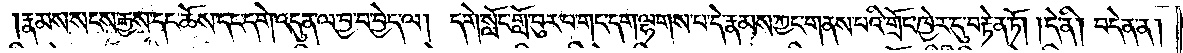རྣམས་སངས་རྒྱས་དང་ཆོས་དང་དགེ་འདུན་ལ་བྱ་བ་བྱེད་ལ། དགེ་སློང་གློ་བུར་པ་གང་དག་ལྷགས་པ་དེ་རྣམས་ཀྱང་གནས་པའི་གྲོང་ཁྱེར་དུ་བརྟེན་ཏོ། །དེ་ནི། བདེན་ན།
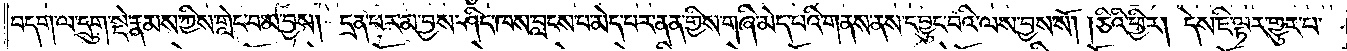བདག་ལ་དྲུག་སྡེ་རྣམས་ཀྱིས་གླེང་བམ་བྱས། དྲན་པར་མ་བྱས་ཤིང་ཁས་བླངས་པ་མེད་པར་ནན་གྱིས་གཞི་མེད་པའི་གནས་ནས་དབྱུང་བའི་ལས་བྱས་སོ། །ཅིའི་ཕྱིར། དེས་ཇི་ལྟར་གྱུར་པ་
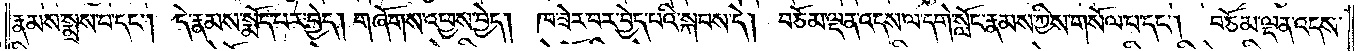རྣམས་སྨྲས་པ་དང༌། དེ་རྣམས་སྨོད་པར་བྱེད། གཞོགས་འཕྱས་བྱེད། ཁ་ཟེར་བར་བྱེད་པའི་སྐབས་དེ། བཅོམ་ལྡན་འདས་ལ་དགེ་སློང་རྣམས་ཀྱིས་གསོལ་པ་དང༌། བཅོམ་ལྡན་འདས་
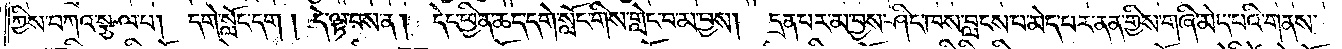ཀྱིས་བཀའ་སྩལ་པ། དགེ་སློང་དག། དེ་ལྟ་བས་ན། དེང་ཕྱིན་ཆད་དགེ་སློང་གིས་གླེང་བ་མ་བྱས། དྲན་པར་མ་བྱས་ཤིང་ཁས་བླངས་པ་མེད་པར་ནན་གྱིས་གཞི་མེད་པའི་གནས་
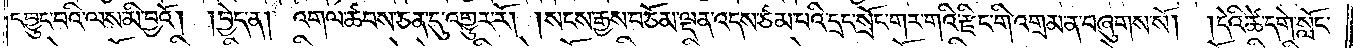དབྱུང་བའི་ལས་མི་བྱའོ། །བྱེད་ན། འགལ་ཚབས་ཅན་དུ་འགྱུར་རོ། །སངས་རྒྱས་བཅོམ་ལྡན་འདས་ཙམ་པའི་དྲང་སྲོང་གར་གའི་རྫིང་གི་འགྲམ་ན་བཞུགས་སོ། །དེའི་ཚེ་དགེ་སློང་
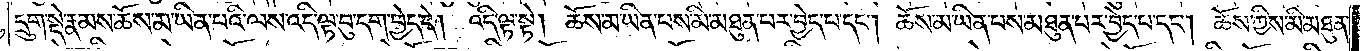དྲུག་སྡེ་རྣམས་ཆོས་མ་ཡིན་པའི་ལས་འདི་ལྟ་བུ་དག་བྱེད་དེ། འདི་ལྟ་སྟེ། ཆོས་མ་ཡིན་པས་མི་མཐུན་པར་བྱེད་པ་དང༌། ཆོས་མ་ཡིན་པས་མཐུན་པར་བྱེད་པ་དང༌། ཆོས་ཀྱིས་མི་མཐུན་
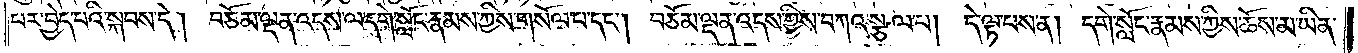པར་བྱེད་པའི་སྐབས་དེ། བཅོམ་ལྡན་འདས་ལ་དགེ་སློང་རྣམས་ཀྱིས་གསོལ་པ་དང༌། བཅོམ་ལྡན་འདས་ཀྱིས་བཀའ་སྩལ་པ། དེ་ལྟ་བས་ན། དགེ་སློང་རྣམས་ཀྱིས་ཆོས་མ་ཡིན་
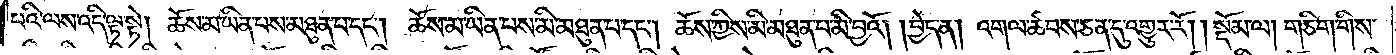པའི་ལས་འདི་ལྟ་སྟེ། ཆོས་མ་ཡིན་པས་མཐུན་པ་དང༌། ཆོས་མ་ཡིན་པས་མི་མཐུན་པ་དང༌། ཆོས་ཀྱིས་མི་མཐུན་པ་མི་བྱའོ། །བྱེད་ན། འགལ་ཚབས་ཅན་དུ་འགྱུར་རོ། སྡོམ་ལ། གཅིག་གིས་
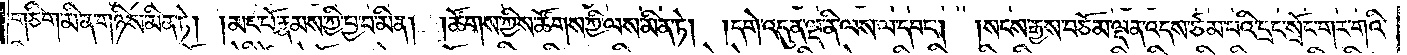གཅིག་མིན་གཉིས་མིན་ཏེ། །མང་པོ་རྣམས་ཀྱི་བྱ་བ་མིན། །ཚོགས་ཀྱིས་ཚོགས་ཀྱི་ལས་མིན་ཏེ། །དགེ་འདུན་ལྔ་ནི་ལས་ལ་དབང༌།  །སངས་རྒྱས་བཅོམ་ལྡན་འདས་ཙམ་པའི་དྲང་སྲོང་གར་གའི་
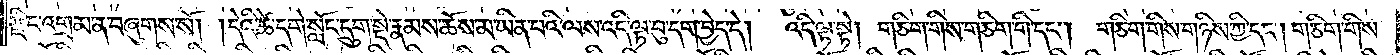རྫིང་འགྲམ་ན་བཞུགས་སོ། །དེའི་ཚེ་དགེ་སློང་དྲུག་སྡེ་རྣམས་ཆོས་མ་ཡིན་པའི་ལས་འདི་ལྟ་བུ་དག་བྱེད་དེ།  འདི་ལྟ་སྟེ། གཅིག་གིས་གཅིག་གི་དང༌། གཅིག་གིས་གཉིས་ཀྱི་དང༌། གཅིག་གིས་
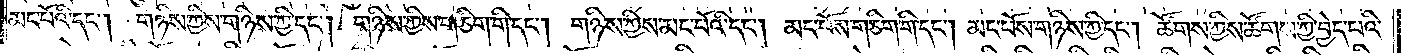མང་པོའི་དང༌། གཉིས་ཀྱིས་གཉིས་ཀྱི་དང༌། གཉིས་ཀྱིས་གཅིག་གི་དང༌། གཉིས་ཀྱིས་མང་པོའི་དང༌། མང་པོས་གཅིག་གི་དང༌། མང་པོས་གཉིས་ཀྱི་དང༌། ཚོགས་ཀྱིས་ཚོགས་ཀྱི་བྱེད་པའི་
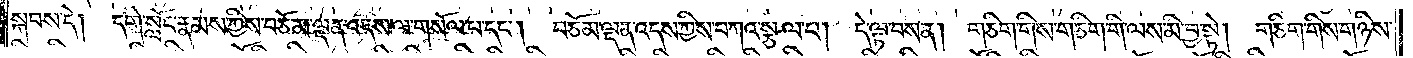སྐབས་དེ། དགེ་སློང་རྣམས་ཀྱིས་བཅོམ་ལྡན་འདས་ལ་གསོལ་པ་དང༌། བཅོམ་ལྡན་འདས་ཀྱིས་བཀའ་སྩལ་པ། དེ་ལྟ་བས་ན། གཅིག་གིས་གཅིག་གི་ལས་མི་བྱ་སྟེ། གཅིག་གིས་གཉིས་
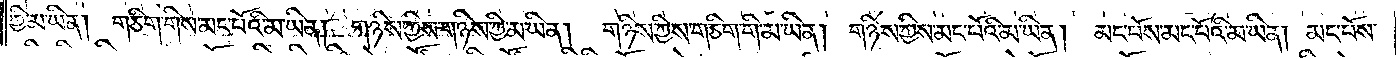ཀྱི་མ་ཡིན། གཅིག་གིས་མང་པོའི་མ་ཡིན། གཉིས་ཀྱིས་གཉིས་ཀྱི་མ་ཡིན། གཉིས་ཀྱིས་གཅིག་གི་མ་ཡིན། གཉིས་ཀྱིས་མང་པོའི་མ་ཡིན། མང་པོས་མང་པོའི་མ་ཡིན། མང་པོས་
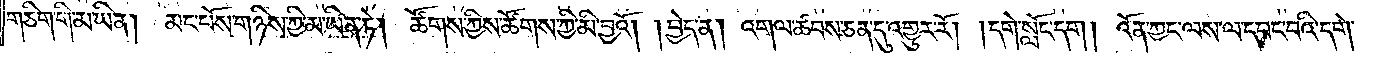གཅིག་གི་མ་ཡིན། མང་པོས་གཉིས་ཀྱི་མ་ཡིན་ཏེ། ཚོགས་ཀྱིས་ཚོགས་ཀྱི་མི་བྱའོ། །བྱེད་ན། འགལ་ཚབས་ཅན་དུ་འགྱུར་རོ། །དགེ་སློང་དག། འོན་ཀྱང་ལས་ལ་དབང་བའི་དགེ་
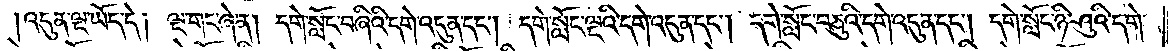།འདུན་ལྔ་ཡོད་དེ། ལྔ་གང་ཞེ་ན། དགེ་སློང་བཞིའི་དགེ་འདུན་དང༌། དགེ་སློང་ལྔའི་དགེ་འདུན་དང༌། དགེ་སློང་བཅུའི་དགེ་འདུན་དང༌། དགེ་སློང་ཉི་ཤུའི་དགེ་
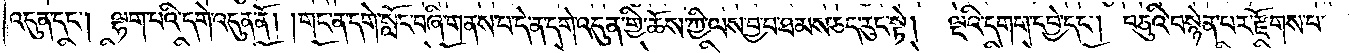འདུན་དང༌། ལྷག་པའི་དགེ་འདུན་ནོ། །གང་ན་དགེ་སློང་བཞི་གནས་པ་དེ་ན་དགེ་འདུན་གྱི་ཆོས་ཀྱི་ལས་བྱ་བ་ཐམས་ཅད་རུང་སྟེ།  ལྔའི་དགག་དབྱེ་དང༌། བཅུའི་བསྙེན་པར་རྫོགས་པ་
